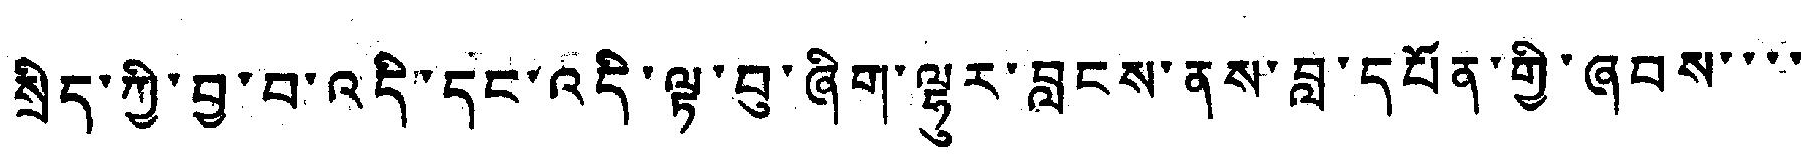སྲིད་ཀྱི་བྱ་བ་འདི་ད་འདི་ལྟ་བུ་ཞིག་ལྷུར་བླངས་ནས་བླ་དཔོན་གྱི་ཞབས་་་་
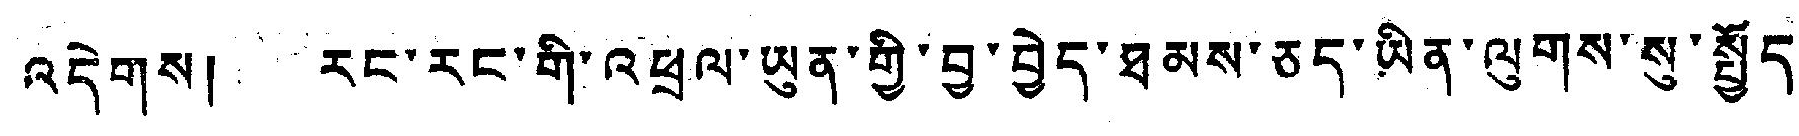འདེགས། རང་རང་གི་འཕྲལ་ཡུན་གྱི་བྱ་བྱེད་ཐམས་ཅད་ཡིན་ལུགས་སུ་སྤྱོད་
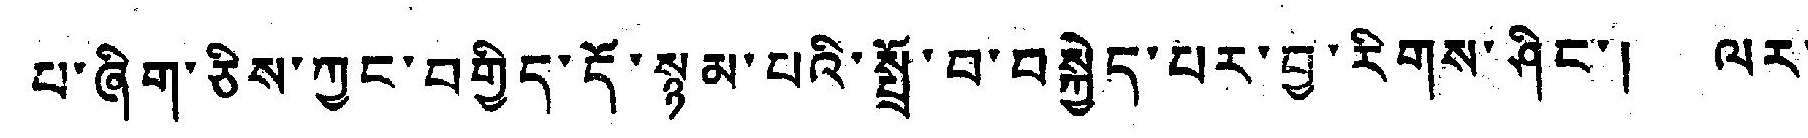པ་ཞིག་ཅིས་ཀྱང་བགྱིད་དོ་སྙམ་པའི་སྤྲོ་བ་བསྐྱེད་པར་བྱ་རིགས་ཤིང་། ལར་
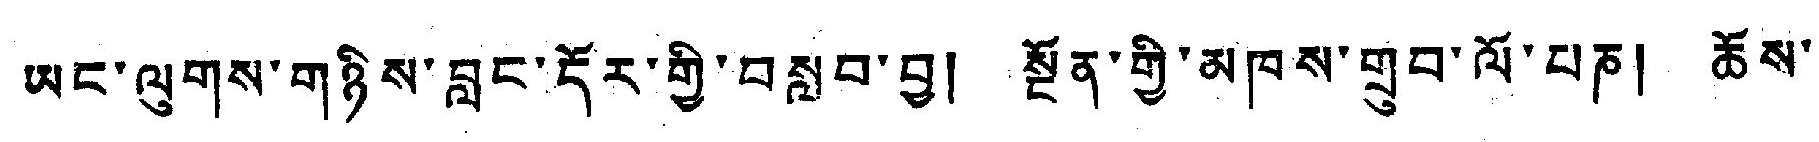ཡང་ལུགས་གཉིས་བླང་དོར་གྱི་བསླབ་བྱ། སྔོན་གྱི་མཁས་གྲུབ་ལོ་པཎ། ཆོས་
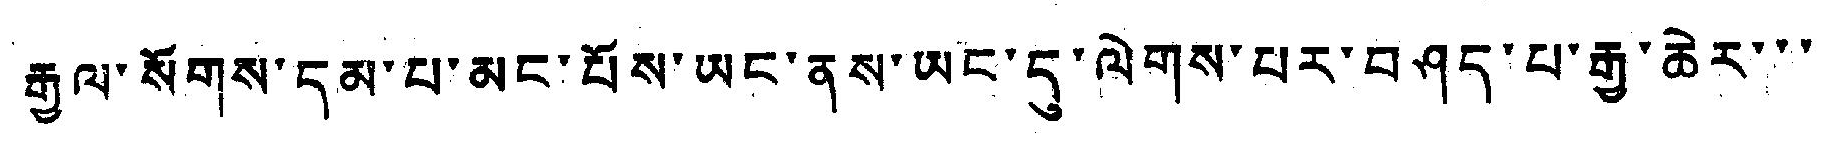རྒྱལ་སོགས་དམ་པ་མང་པོས་ཡང་ནས་ཡང་དུ་ལེགས་པར་བཤད་པ་རྒྱ་ཆེར་་་
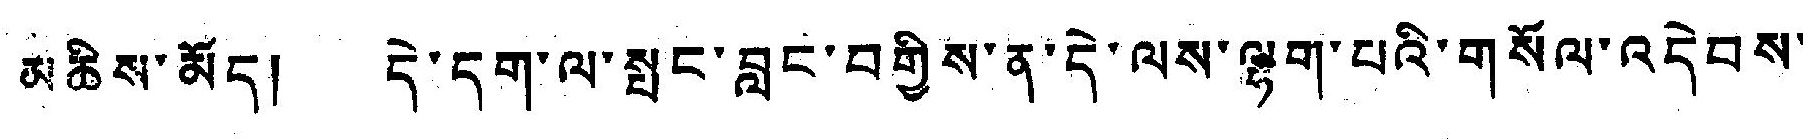མཆིས་མོད། དེ་དག་ལ་སྤང་བླང་བགྱིས་ན་དེ་ལས་ལྷག་པའི་གསོལ་འདེབས་
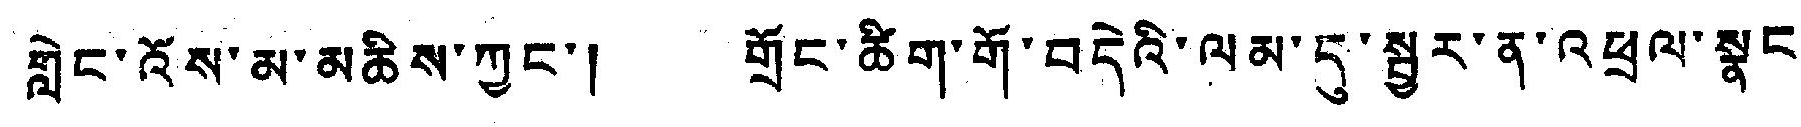གླེང་འོས་མ་མཆིས་ཀྱང་། གྲོང་ཚིག་གོ་བདེའི་ལམ་དུ་སྦྱར་ན་འཕྲལ་སྣང་
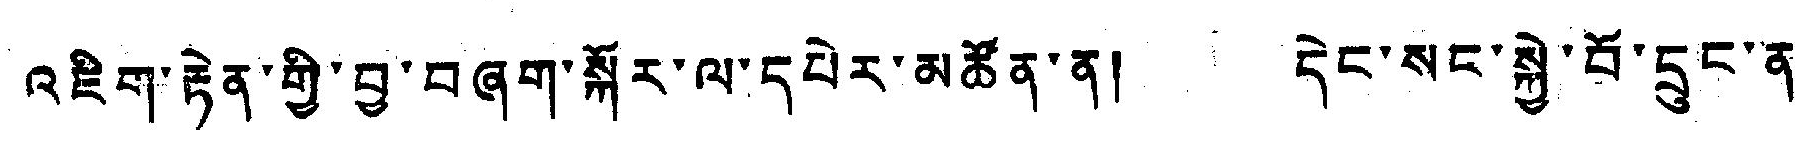འཇིག་རྟེན་གྱི་བྱ་བཞག་སྐོར་ལ་དཔེར་མཚོན་ན། དེང་སང་སྐྱེ་བོ་དྲུང་ན་་
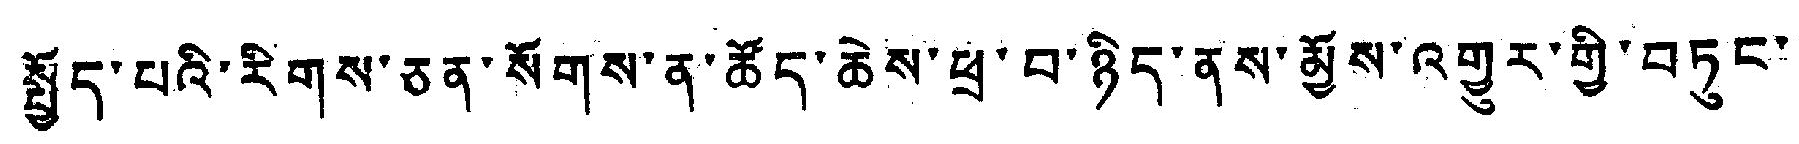སྤྱོད་པའི་རིགས་ཅན་སོགས་ན་ཚོད་ཆེས་ཕྲ་བ་ཉིད་ནས་མྱོས་འགྱུར་གྱི་བཏུང་་
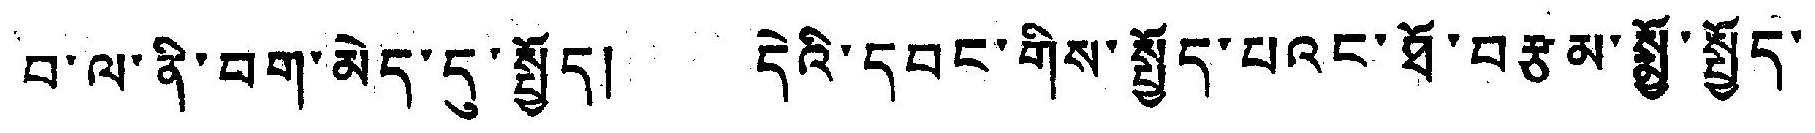བ་ལ་ནི་བག་མེད་དུ་སྤྱོད། དེའི་དབང་གིས་སྤྱོད་པའང་ཐོ་བརྩམ་སྨྱོ་སྤྱོད་
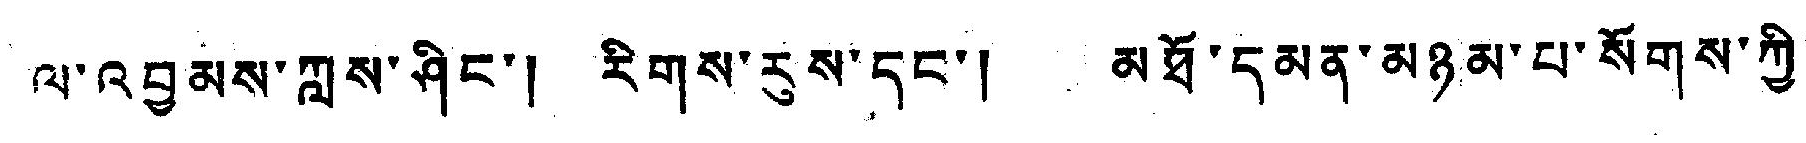ལ་འབྱམས་ཀླས་ཤིང་། རིགས་རུས་དང་། མཐོ་དམན་མཉམ་པ་སོགས་ཀྱི་
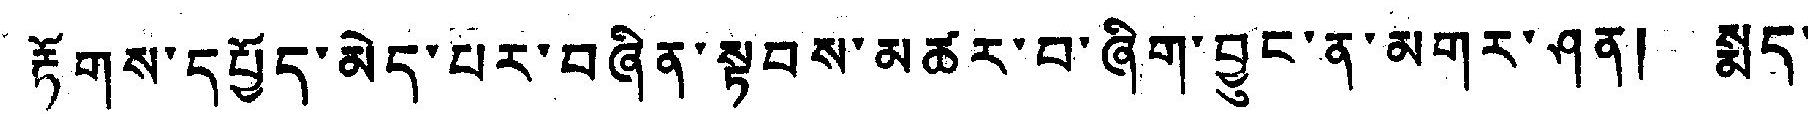རྟོགས་དཔྱོད་མེད་པར་བཞིན་སྟབས་མཚར་བ་ཞིག་བྱུང་ན་མགར་ཤན། སྨད་
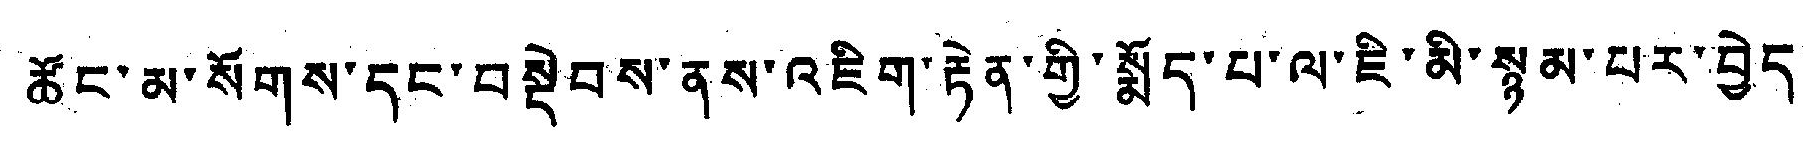ཚོང་མ་སོགས་དང་བསྡེབས་ནས་འཇིག་རྟེན་གྱི་སྨོད་པ་ལ་ཇི་མི་སྙམ་པར་བྱེད་
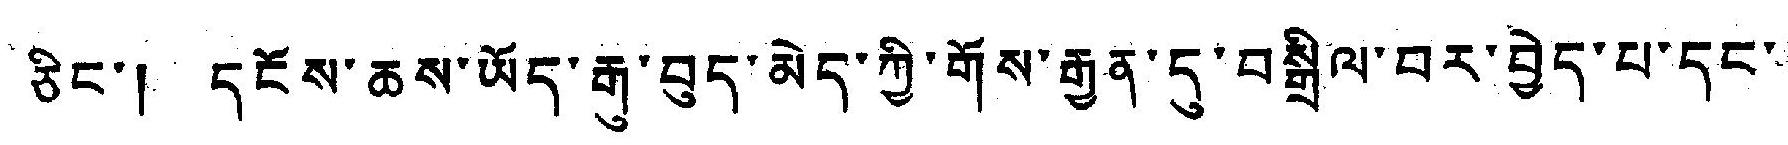ཅིང་། དངོས་ཆས་ཡོད་རྒུ་བུད་མེད་ཀྱི་གོས་རྒྱུན་དུ་བསྒྲིལ་བར་བྱེད་པ་དང་།
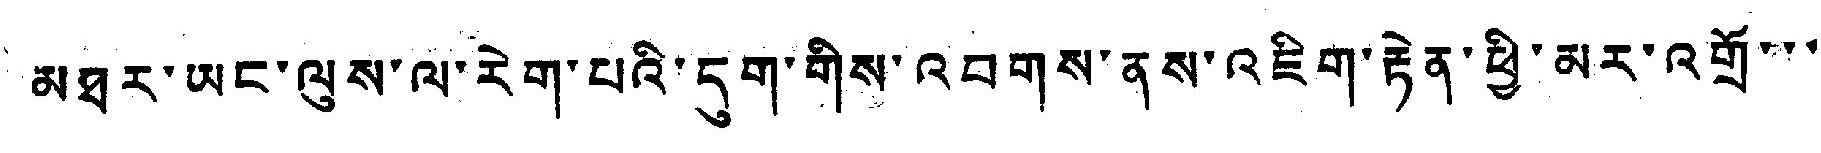མཐར་ཡང་ལུས་ལ་རེག་པའི་དུག་གིས་འབུགས་ནས་འཇིག་རྟེན་ཕྱི་མར་འགྲོ་་་
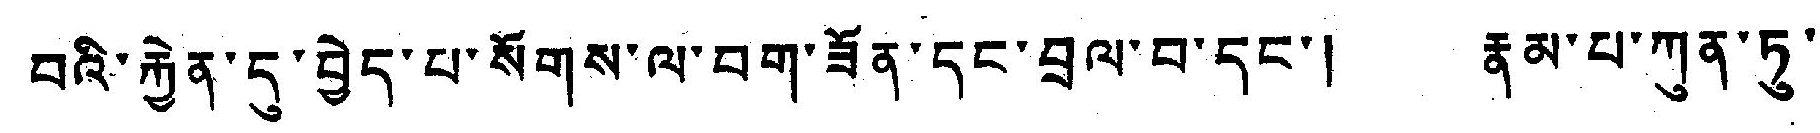བའི་རྐྱེན་དུ་བྱེད་པ་སོགས་ལ་བག་ཟོན་དང་བྲལ་བ་དང་། རྣམ་པ་ཀུན་ཏུ་
